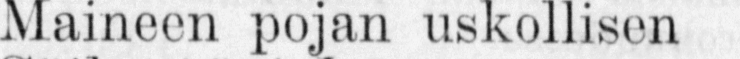Maineen pojan uskollisen
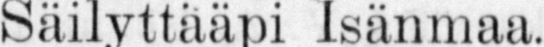Säilyttääpi Isänmaa.
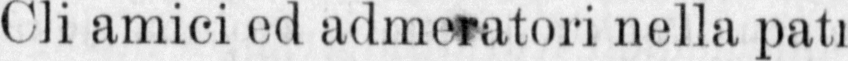Cli amici ed admeratori nella patria
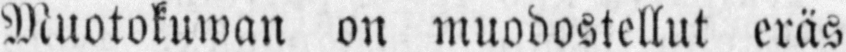Muotokuwan on muodostellut eräs
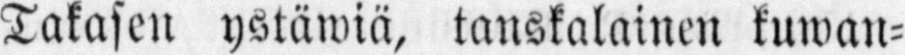Takasen ystäwiä, tanskalainen kuwan-
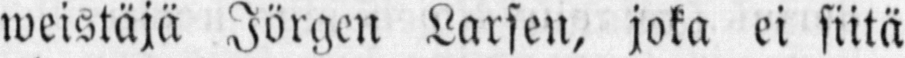weistäjä Jörgen Larsen, joka ei siitä
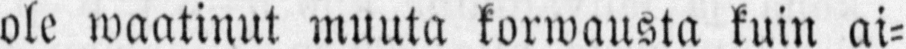ole waatinut muuta korwausta kuin ai-
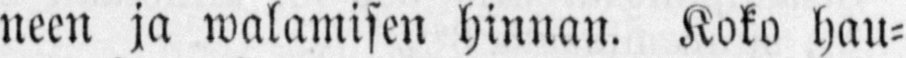neen ja walamisen hinnan. Koko hau-
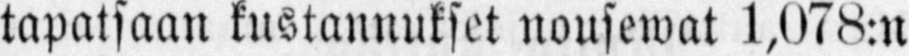tapatsaan kustannukset nousewat 1,078:n
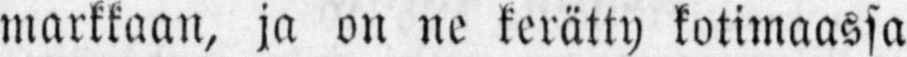markkaan, ja on ne kerätty kotimaassa
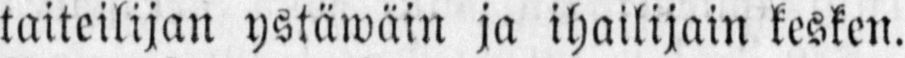taiteilijan ystäwäin ja ihailijani kesken.
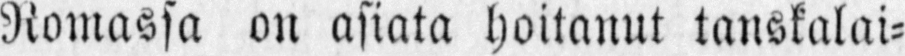Romassa on asiata hoitanut tanskalai-
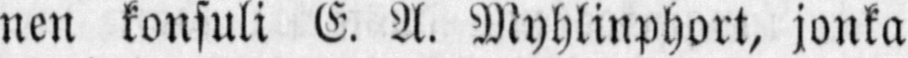nenkonsuli E. A. Myhlinphort, jonka
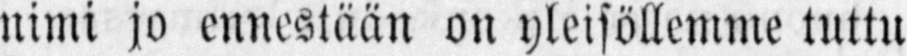nimi jo ennestään on yleisöllemme tuttu
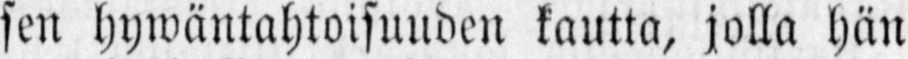sen hywäntahtoisuuden kautta, jolla hän
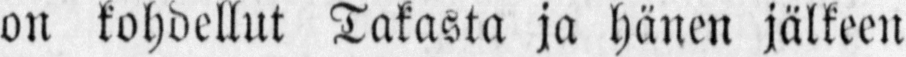on kohdellut Takasta ja hänen jälkeen
